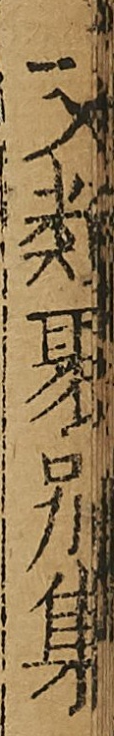文類聚别集
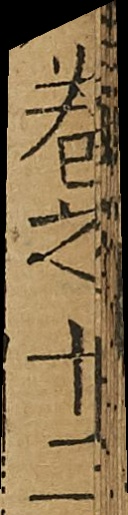卷之十二
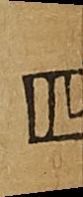四
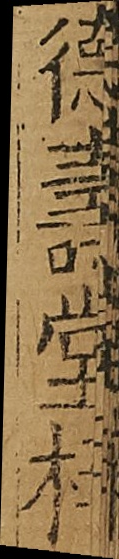德壽堂梓
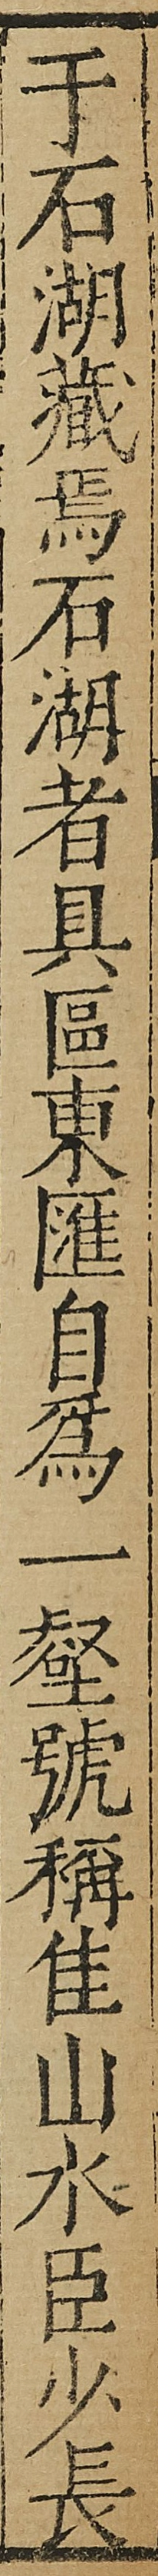于石湖藏焉石湖者具區東匯自為一壑號稱佳山水臣少長
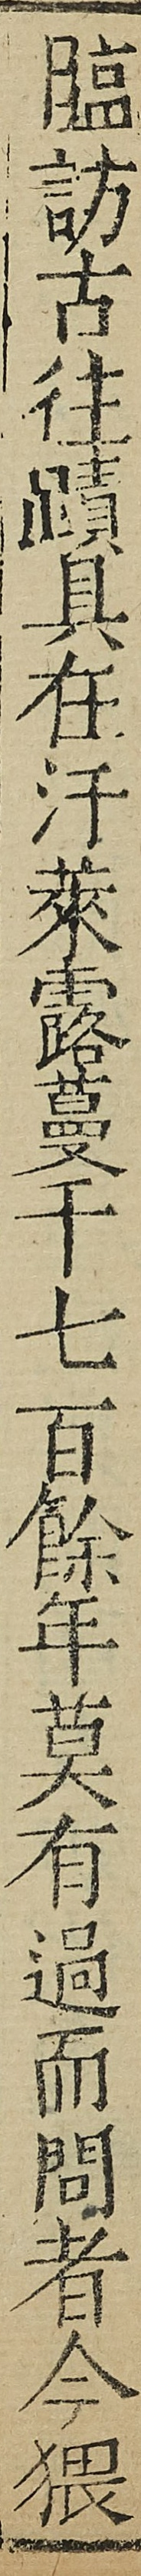臨訪古往蹟具在汙萊露蔓千七百餘年莫有過而問者今猥
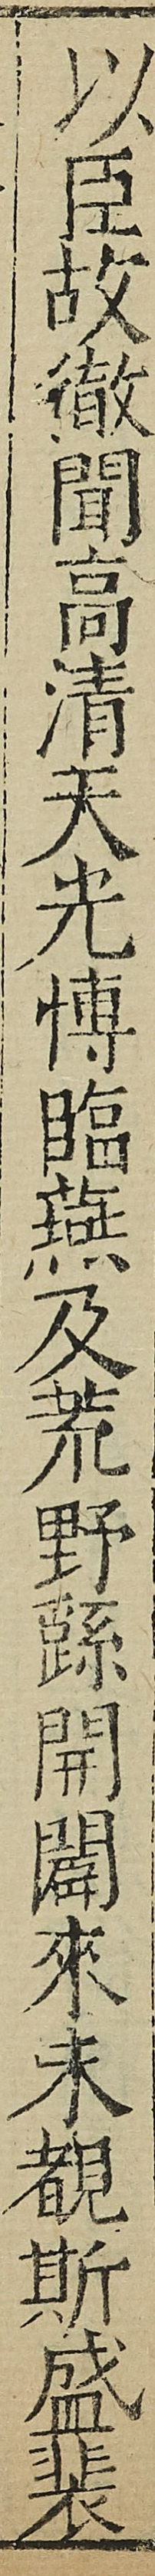以臣故徹聞高清天光博臨燕及荒野繇開闢來未覩斯盛裴
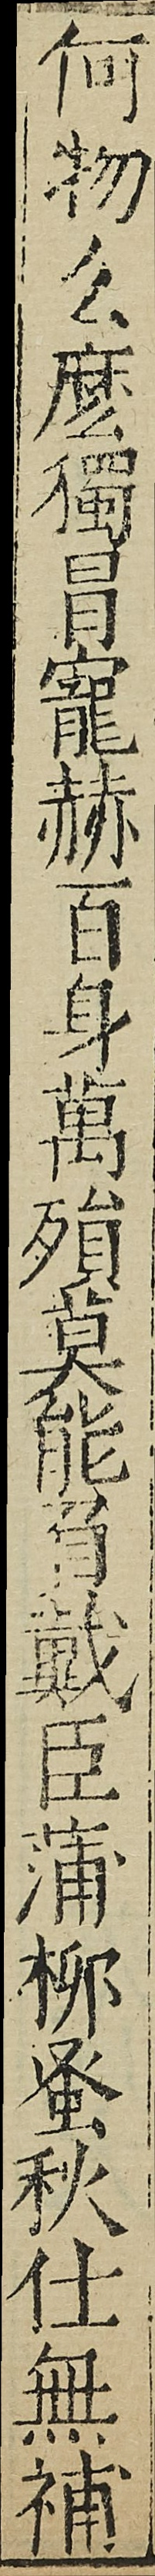何物么麽獨冒寵赫百身萬殞莫能負戴臣蒲栁蚤秋仕無補
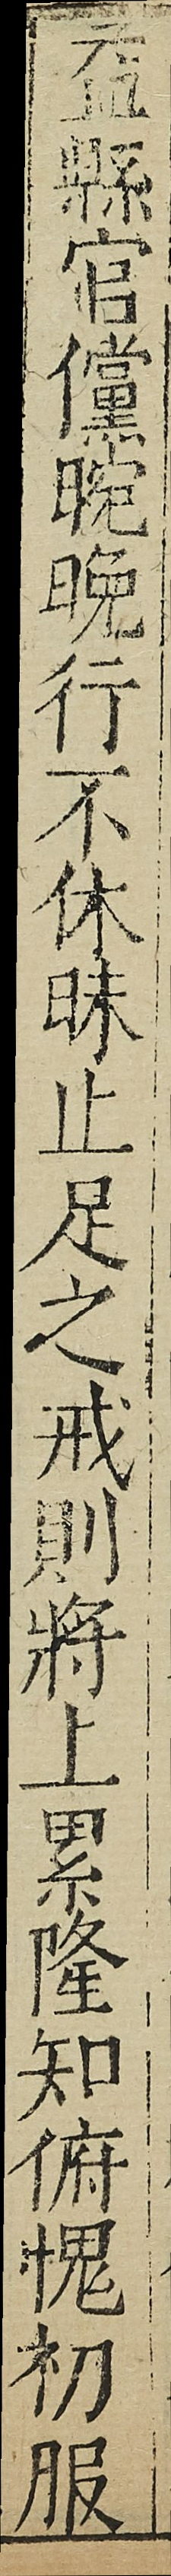益縣官儻晼晩行不休昧止足之戒則將上累隆知俯愧初服
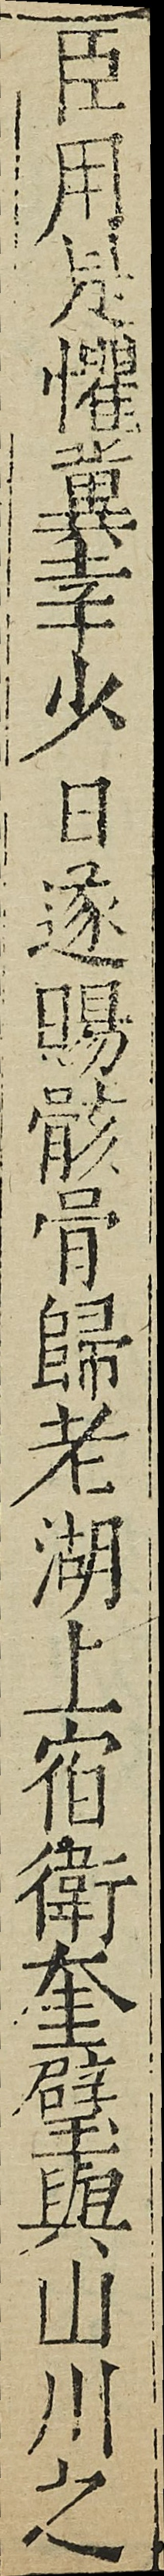臣用是懼冀幸少日遂賜骸骨歸老湖上宿衛奎壁與山川之
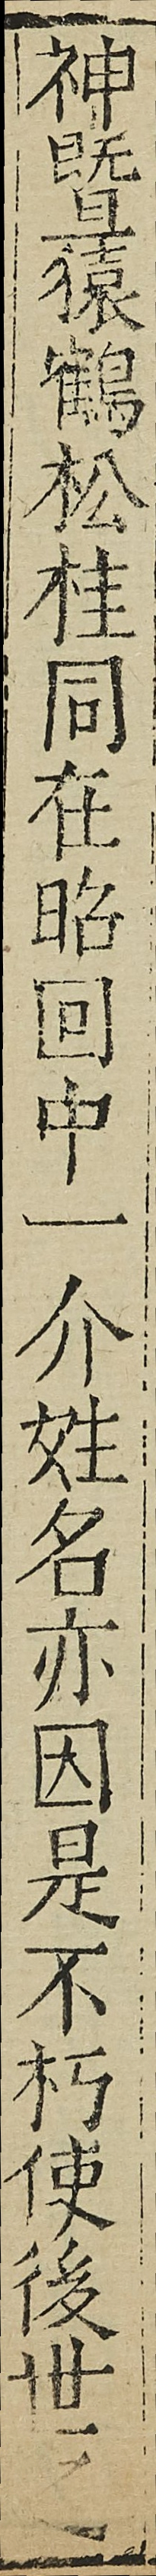神暨猿鶴松桂同在昭回中一介姓名亦因是不朽使後世之
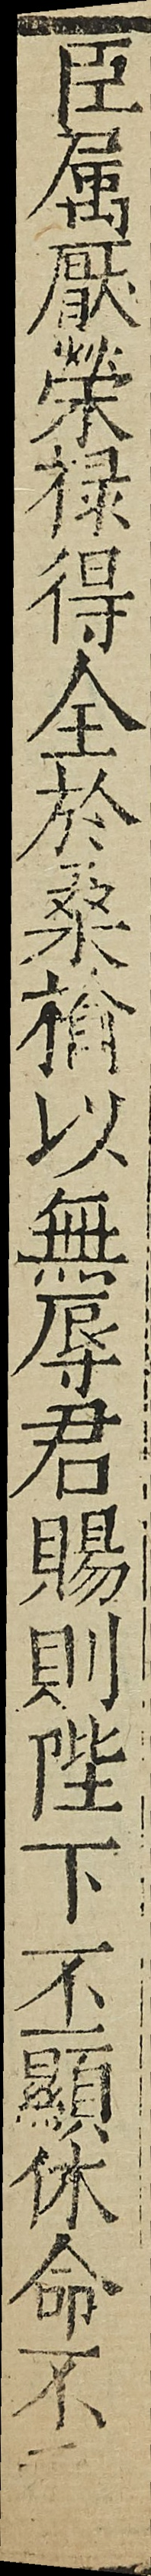臣属厭榮禄得全於桑榆以無辱君賜則陛下丕顯休命不委
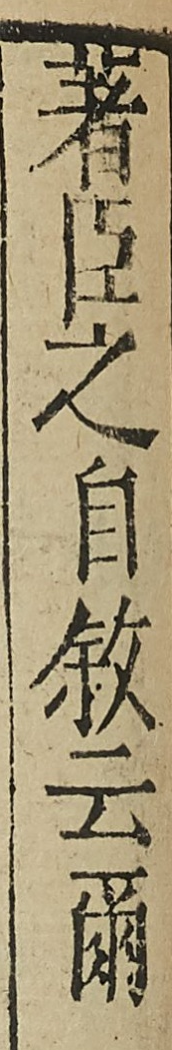著臣之自叙云爾
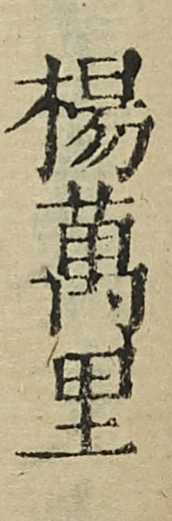楊萬里
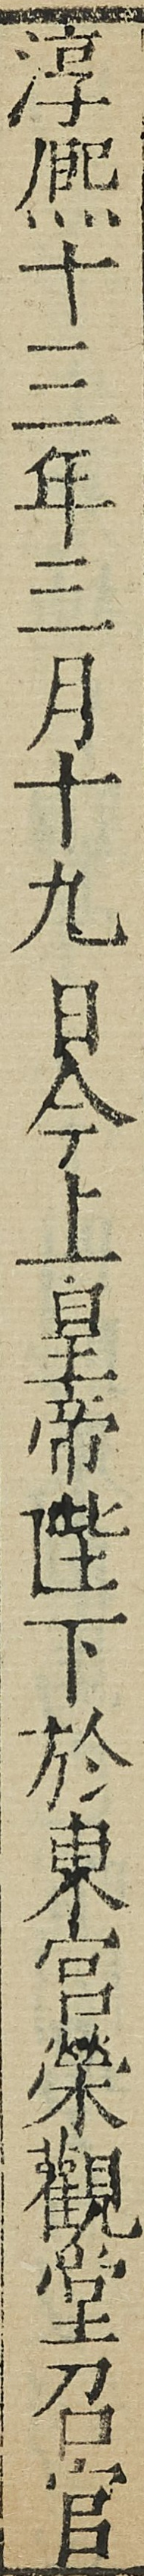淳熈十三年三月十九日今上皇帝陛下於東宮榮觀堂召官
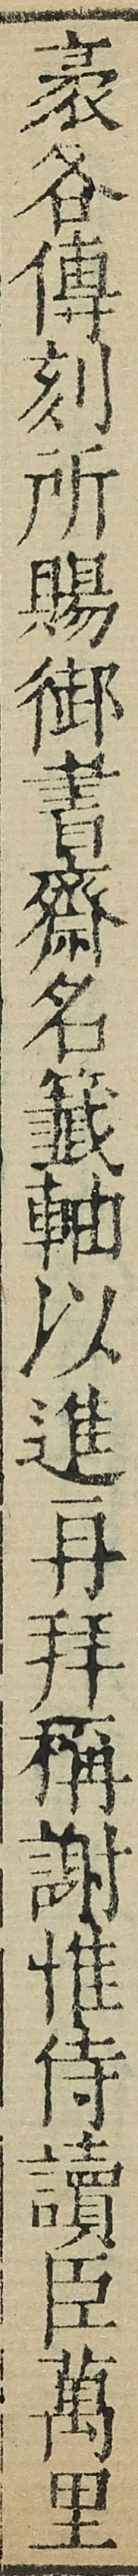袤各傳刻所賜御書齋名籖軸以進再拜稱謝惟侍讀臣萬里
